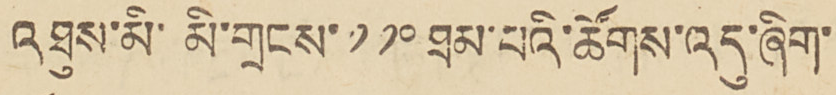འཐུས་མི་མི་གྲངས་༡༡༠ ཐམ་པའི་ཚོགས་འདུ་ཞིག་
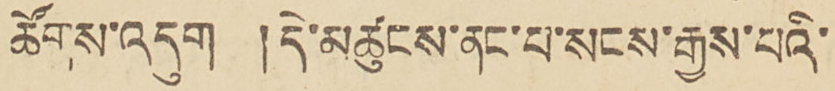ཚོགས་འདུག །དེ་མཚུངས་ནང་པ་སངས་རྒྱས་པའི་
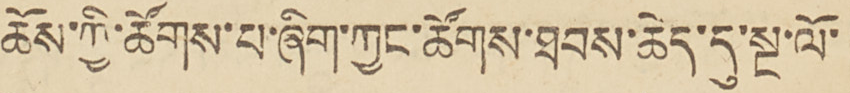ཆོས་ཀྱི་ཚོགས་པ་ཞིག་ཀྱང་ཚོགས་ཐབས་ཆེད་དུ་སྔ་ལོ་
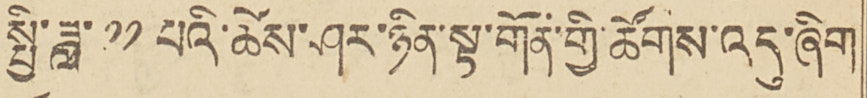སྤྱི་ཟླ་ ༡༡ པའི་ཚེས་ཤར་ཉིན་སྟ་གོན་གྱི་ཚོགས་འདུ་ཞིག
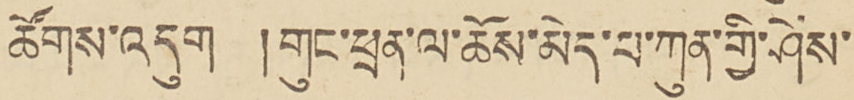ཚོགས་འདུག །གུང་ཕྲན་ལ་ཆོས་མེད་པ་ཀུན་གྱི་ཤེས་
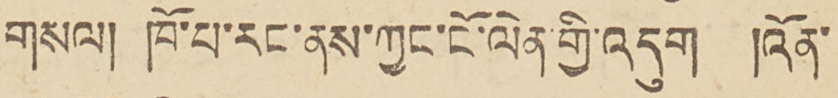གསལ། ཁོ་པ་རང་ནས་ཀྱང་ངོ་ལེན་གྱི་འདུག །འོན་
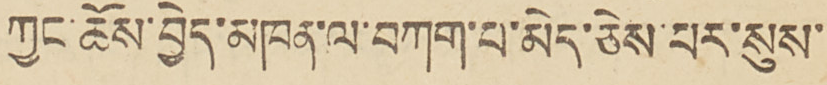ཀྱང་ཆོས་བྱེད་མཁན་ལ་བཀག་པ་མེད་ཅེས་པར་སུས་
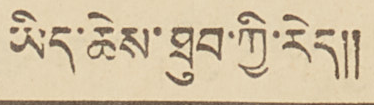ཡིད་ཆེས་ཐུབ་ཀྱི་རེད།།
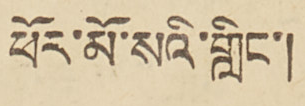ཕོར་མོ་སའི་གླིང་།
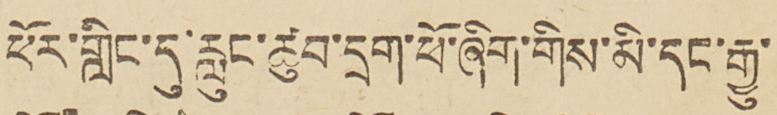ཕོར་གླིང་དུ་རླུང་ཚུབ་དྲག་ཕོ་ཞིག་གིས་མི་དང་རྒྱུ་
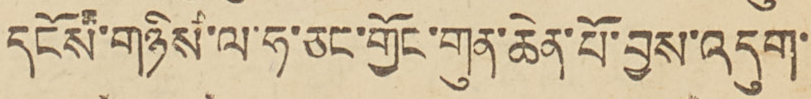དངོས་གཉིས་ལ་ཧ་ཅང་གྱོང་གུན་ཆེན་པོ་བྱས་འདུག་
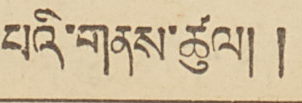པའི་གནས་ཚུལ། །
